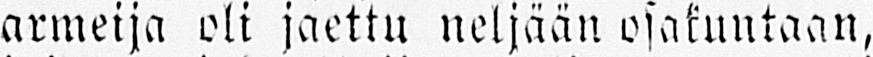armeija oli jaettu neljään osakuntaan,
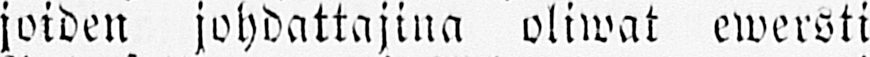joiden johdattajina oliwat ewersti
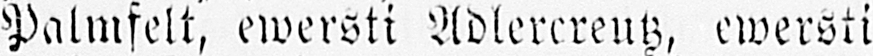Palmfelt, ewersti Adlerereuz, ewersti
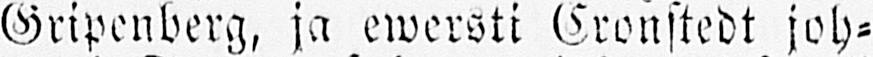Gripenberg, ja ewersti Eronstedt joh-
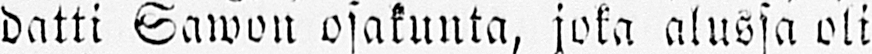datti Sawon osakunta, joka alussa oli
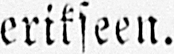erikseen.
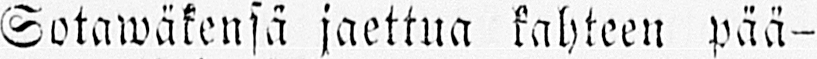Sotawäkensä jaettua kahteen pää-
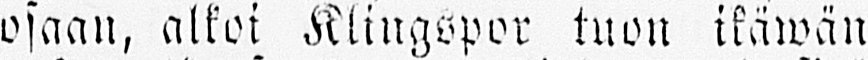osaan, alkoi Klingspor tuon ikäwän
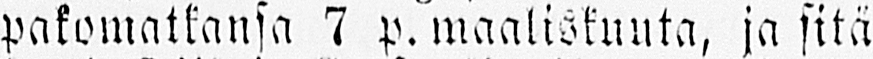pakomatkansa 7 p. maaliskuuta, ja sitä
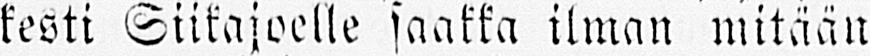kesti Siikajoelle saakka ilman mitään
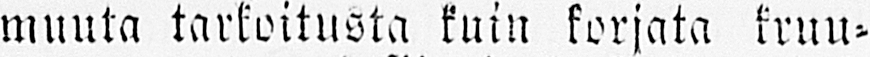muuta tarkoitusta kuin korjata kruu-
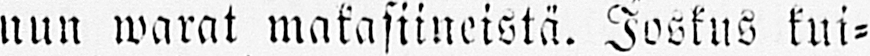nun warat makasiineista. Joskus kui-
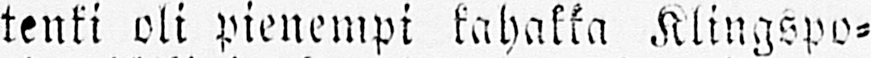tenki oli pienempi kahakka Klingspo-
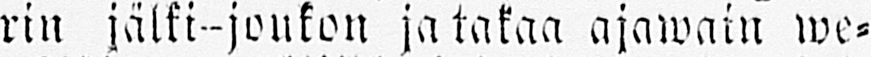rin jälki-joukon jatakaa ajawain we-
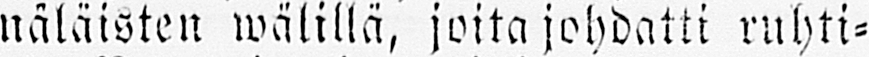näläisten wälillä, joita johdatti ruhti-
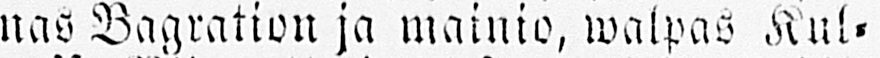nas Bagration ja mainio, walpas Kul-
